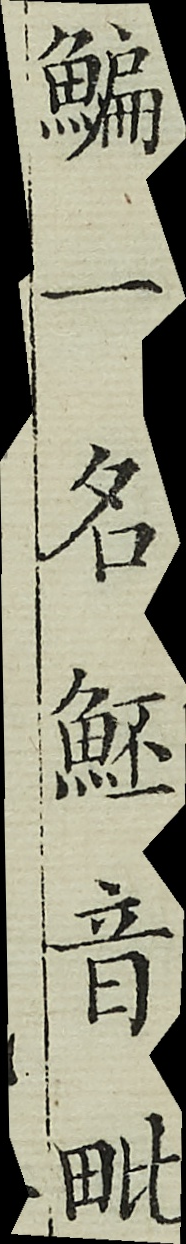鯿一名魾音毗
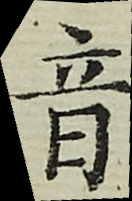音
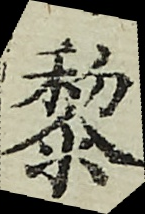黎
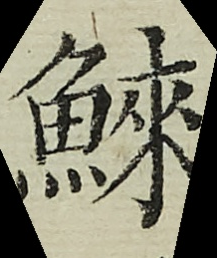鯠
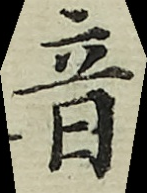音
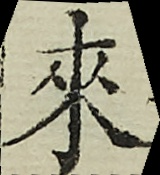來
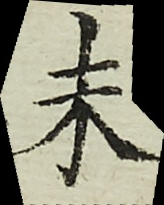未
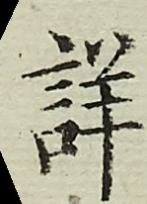詳
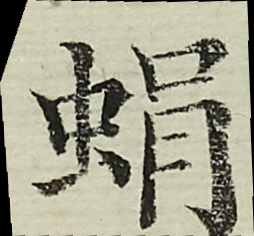蜎
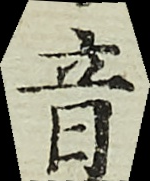音
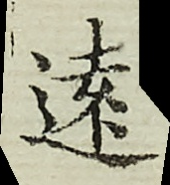遠
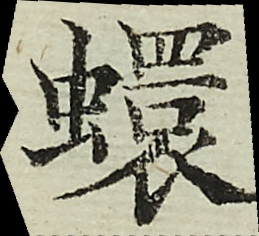蠉
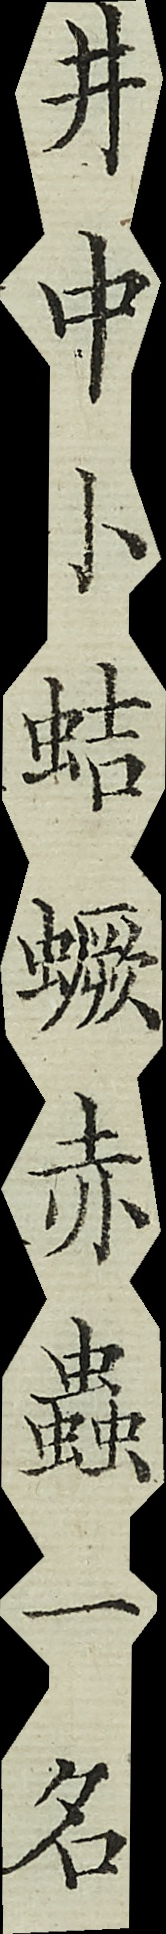井中小蛣蟩赤蟲一名
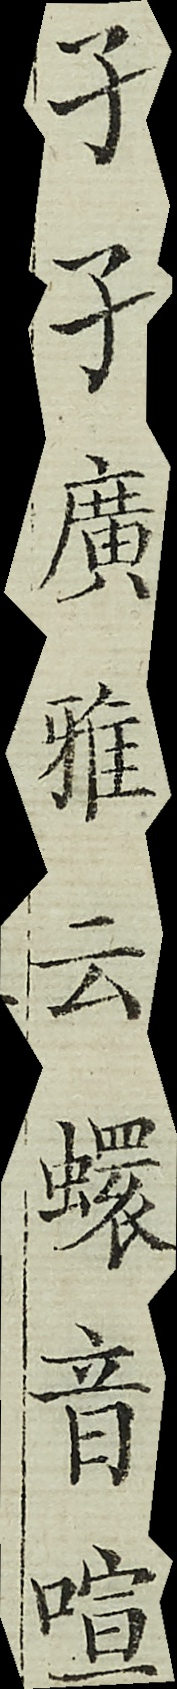孑孓廣雅云蠉音喧
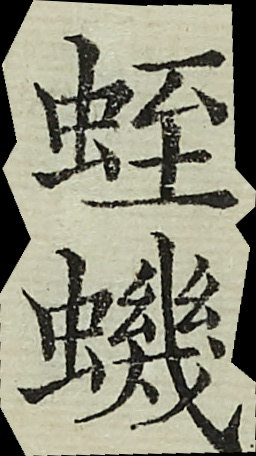蛭蟣
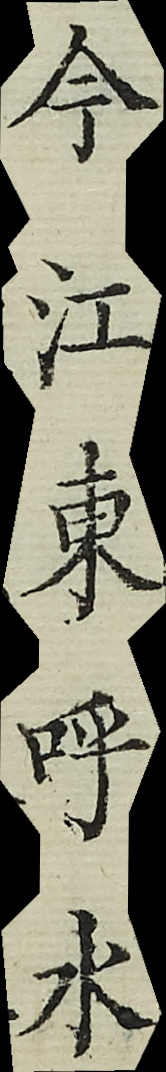今江東呼水
